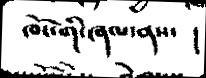ཁོང་གི་ཞལ་ནས་    །
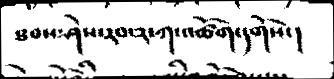ཐབས་ཤེས་རབ་༢་ཀ་འཚོག་དགོས་།
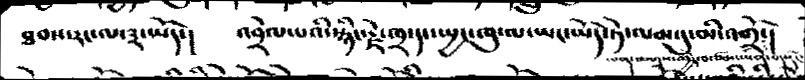ཐབས་རང་ལ་༣་ཡོད་།   འབྲེལ་པའི་སྙིང་རྗེ་ཁྲ་དང་སྤྱང་ཁུ་ལ་ཡང་ཡོད་ཏེ་ལམ་དུ་མི་འགྲོ་།
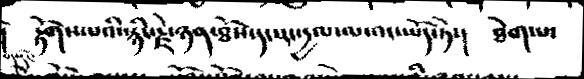།    རྟོགས་པའི་སྙིང་རྗེ་ཉན་ཐོས་དང་རང་དྱལ་ལ་འང་ཡོད་ཏེ་།   ཐེག་པ་
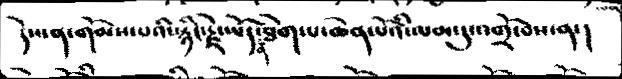དེས་ན་གོམས་པའི་སྙིང་རྗེ་ཡོད་ན་ཐེག་པ་ཆེན་པོའི་ལམ་དུ་འགྲོ་བས་ན་།
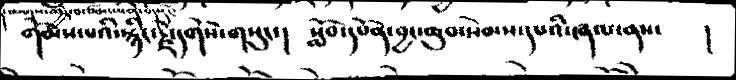གོམས་པའི་སྙིང་རྗེ་དགོས་གསུང་།     སློབ་དཔོན་བྱང་ཆུབ་སེམས་དཔའི་ཞལ་ནས་   །
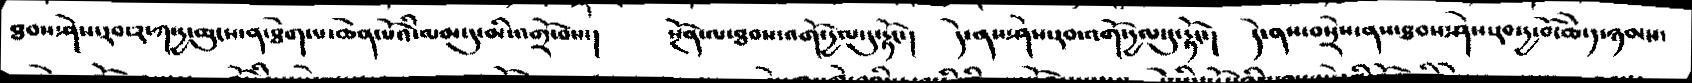ཐབས་ཤེས་རབ་༢་ཀ་དྱ་ཆུངས་ན་ཐེག་པ་ཆེན་པོའི་ལམ་དུ་མི་འགྲོ་བས་།   སྔོནན་ལ་ཐབས་འགོ་དྱལ་དུ་རྟོང་།   དེ་ནས་ཤེས་རབ་འགོ་དྱལ་དུ་རྟོང་།   དེ་ནས་བསྲེས་ནས་ཐབས་ཤེས་རབ་དྱ་བོ་ཆེ་༡་ཉམས་
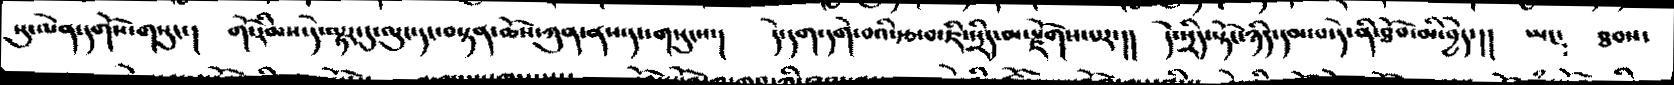སུ་ལེན་དགོས་གསུང་།  གོ་རིམས་དེ་ལྟར་དུ་ལུང་དང་བསྟན་ཆོས་ཀུན་ནས་དང་གསུངས་།  དེ་དག་དགེ་བའི་རྩ་བ་ཇི་སྲིད་མ་རྫོགས་པར་།།  དེ་སྲིད་སྟོང་ཉིད་དམ་པ་དེ་ནི་ཐོབ་མི་བྱེད་།།  ཡང༴    ཐབས་
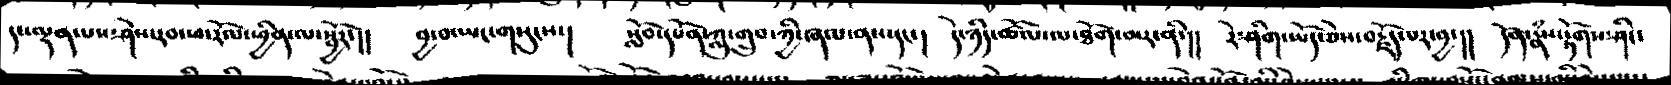དང་ལྡན་པས་ཤེས་རབ་ཕ་རོལ་ཕྱིན་ལ་སྦྱོར་།།    བྱ་བ་ཡང་གསུངས་།  སློབ་དཔོན་ཀླུ་གྲུབ་ཀྱི་ཞལ་ནས་དང་།   དེ་ཉིད་ཚོལ་ལ་ཐོག་མར་ནི་།།   རེ་ཤིག་ཡོད་ཅེས་བརྗོད་པར་བྱ་།།   དོན་རྣཾས་རྟོགས་ཤིང་
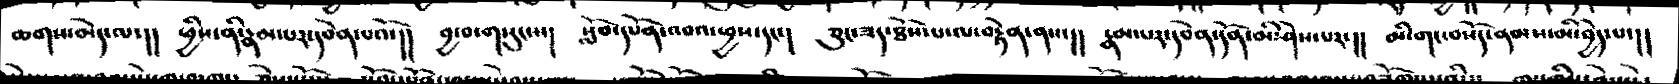ཆགས་མེད་ལ་།།   ཕྱིས་ནི་རྣམ་པར་དབེན་པའོ་།།   བྱ་བ་གསུངས།   སློབ་དཔོན་འབའ་ཕྱས་དང་།  ཅུང་ཟད་ཐོས་པ་ལ་བརྟེན་ནས་།།   རྣམ་པར་དབེན་དོན་མི་ཤེས་པར་།   མི་གང་བསོད་ནམས་མི་བྱེད་པ་།།
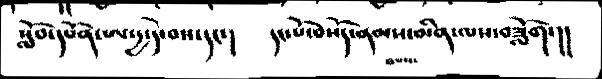སློབ་དཔོན་ཨ་དྱ་དེ་བས་དང་།    དང་པོ་བསོད་ནམས་མིན་ལས་བཟློག་།།
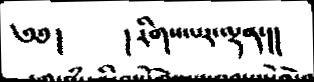༄༅།      ། རིགས་པར་ལྡན་།།
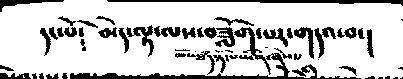དང་པོ༴    མེད་ལྟ་ལས་བཟློག་པར་གདའ་བ་།
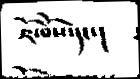ཇོ་བོས་དང་།
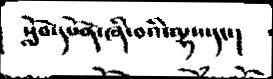སློབ་དཔོན་ཞི་བའི་ལྷས་དང་།
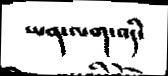ཡན་ལག་འདི་
